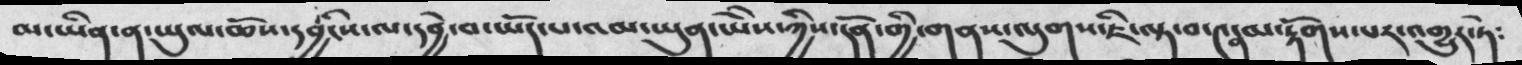མ་ཡིན་ན་ཡུལ་ཆོས་དབྱིངས་ལ་དབྱེ་བ་ཡོད་པ་འམ་ཡུན་ཡེེས་ཀྱིས་དོན་གྱི་གནས་ལུགས་ཇི་ལྟ་བ་༤ན་མ་རྟོགས་པར་འགྱུར་ཏེ༴
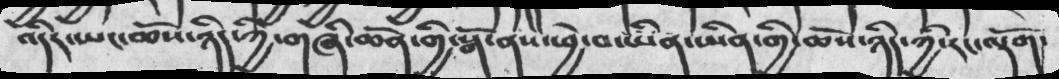འདིར་ཡང་ཆོས་ཉིད་ཀྱི་གཞི་ཆེན་གྱི་སྒོ་ནས་ཕྱེ་བ་ཡིན་ཡིན་གྱི་ཆོས་ཉིད་ཀྱི་རང་ལྡོག་
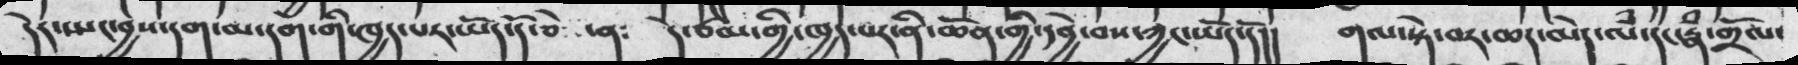དེར་ཡང་བྱས་དག་མ་དག་གི་ཁྱད་པར་ཡོད་དོ་ཅེ ་ན༴    དེ་ཙམ་གྱི་ཁྱད་པར་ནི་ཆོན་གྱི་དབྱེ་བས་ཀྱང་ཡོད་དོ།།   གལ་སྟེ་བར་ཆད་མེད་ལཾ་དང་རྣཾ་གྲོལ་
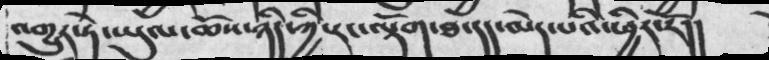འགྱུར་ཏེ་ཡུལ་ཆོས་ཉིད་ཀྱི་རང་ལྡོག་ཐ་དད་མེད་པའི་ཕྱིར་རོ།།
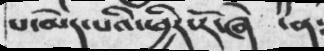པ་མེད་པའི་ཕྱིར་རོ་ཞེ  ་ན༴
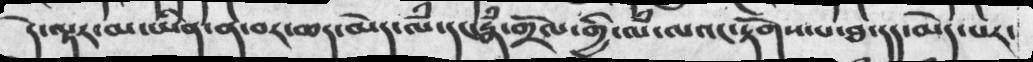དེ་ལྟར་མ་ཡིན་ན་བར་ཆད་མེད་ལཾ་དང་རྣཾ་གྲོལ་གྱི་ལཾ་ལའང་རྟོགས་པ་ཐ་དད་མེད་པར་
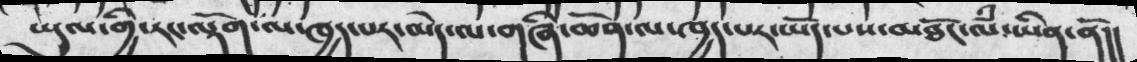ཡུལ་གྱི་རང་ལྡོག་ལ་ཁྱད་པར་མེད་ལ་གཞི་ཆེན་ལ་ཁྱད་པར་ཡོད་པས་མཐོང་ལཾ་ཡིན་ནོ།།
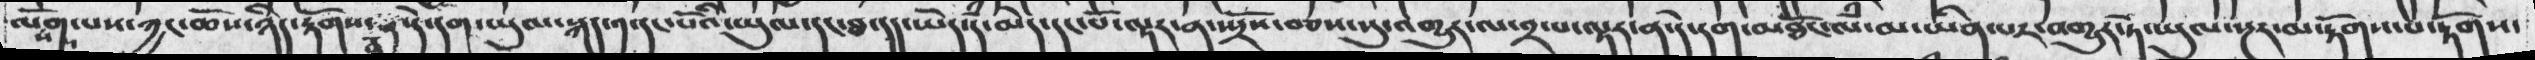ལསོགས་པས་ཀྱང་ཆོས་ཉིདརྟོགས་ན་དེ་དག་ཡུལ་སྐད་༡་དང་པོའི་ཡུལ་དང་ཐ་དད་ཡོད་དཾ་མེད་དང་པོ་ལྟར་ན་སྤྲོས་བཅས་སུ་འགྱུར་ལ་༢་པ་ལྟར་ན་དེ་དག་མཐོང་ལཾ་མ་ཡིན་པར་འགྱུར་ཏེ་ཡུལ་སྔར་མ་རྟོགས་པ་རྟོགས་
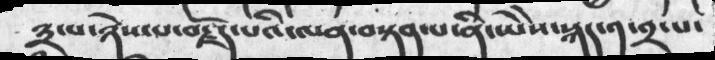༣་པ་ཉེས་པ་བརྗོད་པའི་ལན་བསྟན་པ་ནི་ཡེེས་སྐད་༡་༢་པ་
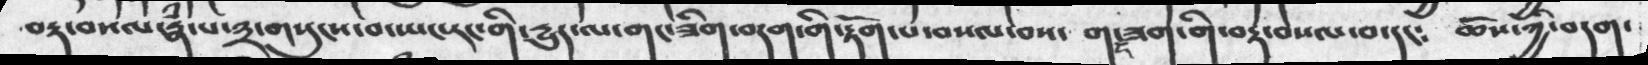བརྡ་བསལ་རྣཾ་པ་༣་གསུངས་བ་ཡང་རང་གི་དྱུད་ལ་གང་ཟིག་བདག་གི་རྟོག་པ་བསལ་བས་   གང་ཟག་གི་བརྡ་བསལ་བ་དང༴   ཆོས་ཀྱི་བདག་
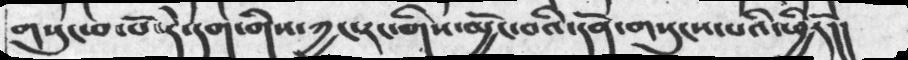གསུང་བ་པོ་དེ་དག་གིས་ཀྱང་རང་གིས་མྱོང་བའི་དོན་གསུངས་པའི་ཕྱིརོ།།
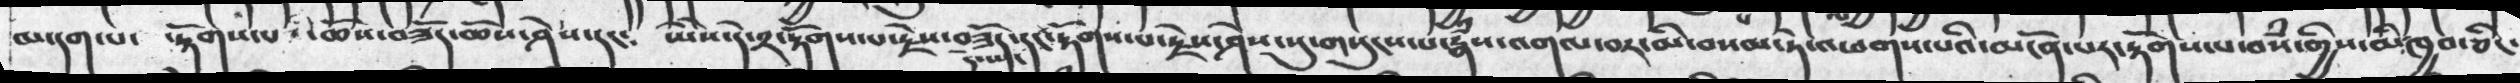མ་དག་པ་  རྟོགས་པའི་ཆོས་བཟོད་ཆོས་ཤེས་དང་  ཡེེས་དེ་༢་རྟོགས་པ་རྗེས་བཟོད་དང་དེ་ཡང་རྟོགས་པ་རྗེས་ཤེས་སུ་གསུངས་པ་རྣཾས་འགལ་བར་མི་བསམ་ཏེ་འཕགས་པའི་མངོན་པར་རྟོགས་པ་བསཾ་གྱིས་མི་ཁྱབ་ཅིང་
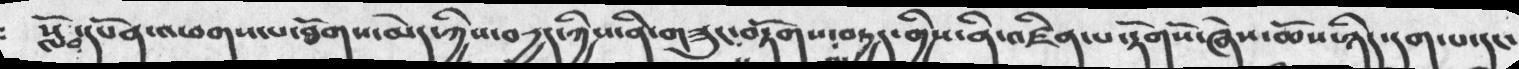སློབ་དཔོན་འཕགས་པ་ཐོགས་མེད་ཀྱིས་བདྱད་ཀྱིས་ནི་གཟུང་བ་བརྟོགས་པ་བདྱད་གྱིས་ནི་འཛིན་པ་རྟོགསོ་ཞེས་ཆོས་ཉིད་དག་པ་དང་
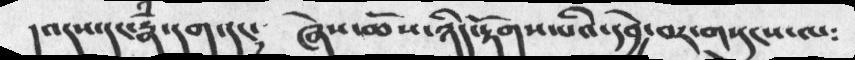།འདས་དང་རྣཾ་དག་དང༴   ཞེས་ཆོས་ཉིད་རྟོགས་པའི་དབྱེ་བར་གསུངས་ལ༴
